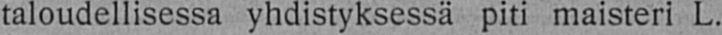taloudellisessa yhdistyksessä piti maisteri L.
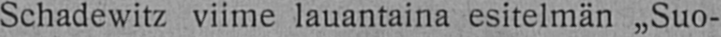Schadewitz viime lauantaina esitelmän „Suo-
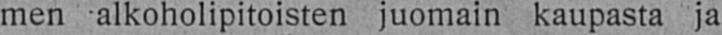men alkoholipitoisten juomain kaupasta ja
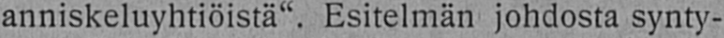anniskeluyhtiöistä". Esitelmän johdosta synty-
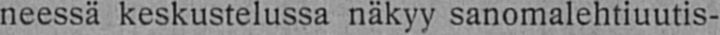neessä keskustelussa näkyy sanomalehtiuutis-
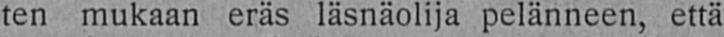ten mukaan eräs läsnäolija pelänneen, että
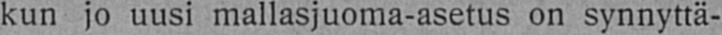kun jo uusi mallasjuoma-asetus on synnyttä-
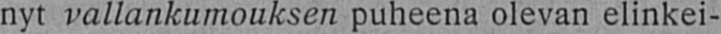nyt vallankumouksen puheena olevan elinkei-
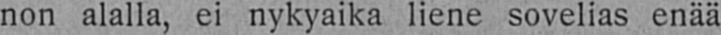non alalla, ei nykyaika liene sovelias enää
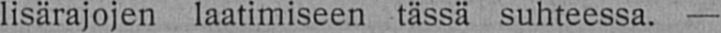lisärajojen laatimiseen tässä suhteessa. —
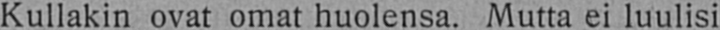Kullakin ovat omat huolensa. Mutta ei luulisi
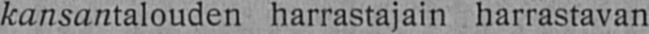kansantalouden harrastajain harrastavan ka-
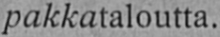pakkataloutta.
